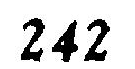242
